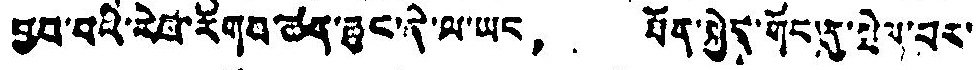བྱབ་པའི་རེབ་རོགས་ཚན་ཆུང་དེ་ལ་ཡང， ཐོན་སྐྱེད་གོང་དུ་སྤེལ་བར་
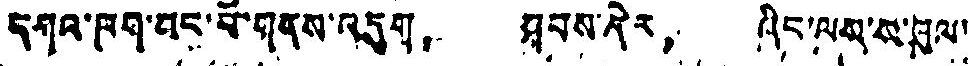དགའ་ཁབ་བུང་པོ་གནས་འདུག， ཐབས་དེར， ཞིང་ལས་ས་ཁུལ་
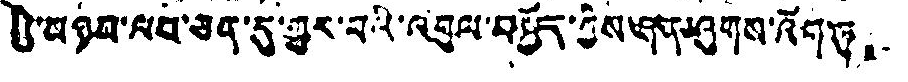ཀྱི་མཉམ་ལབ་ཅན་དུ་གྱུར་བའི་འབུལ་བསྐྱོད་ཀྱིས་ཤན་ཤུགས་འོག་ཏུ。
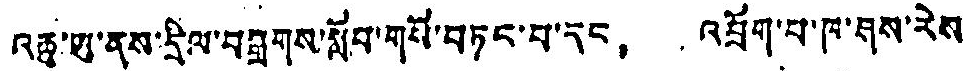འཆུ་ཡུ་ནས་དྲིལ་བསྒྲགས་སློབ་གསོ་བཏང་བ་དང， འབྲོག་པ་ཁ་ཤས་རེས
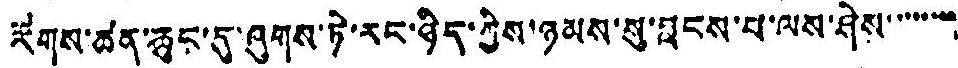རོགས་ཚན་ཆུང་དུ་ཞུགས་ཏེ་རང་ཉིད་ཀྱིས་ཉམས་སུ་བླངས་པ་ལས་ཤེས་་་་་་་་
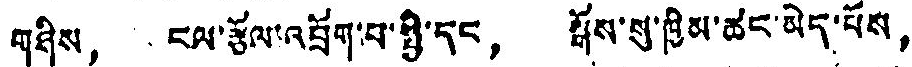གཤིས， ངལ་རྩོལ་འབྲོག་པ་སྤྱི་དང， སྒོས་སུ་ཁྱིམ་ཚང་མེད་པོས，
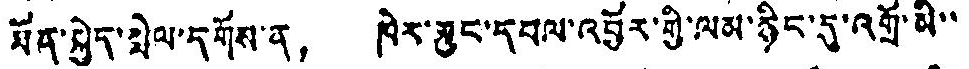ཐོན་སྐྱེད་སྤེལ་དགོས་ན， ཁེར་ཆུང་དཔལ་འབྱོར་གྱི་ལམ་རྙིང་དུ་འགྲོ་མི་་
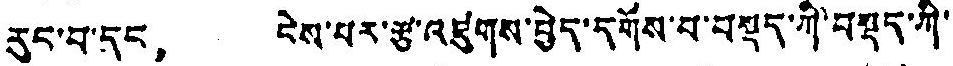རུང་བ་དང， ངེས་པར་རྩ་འཛུགས་བྱེད་དགོས་པ་བསྡད་ཀི་བསྡད་ཀྱི་
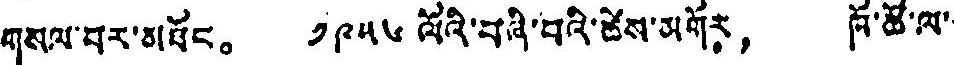གསལ་བར་མཐོང。 ༡༩༥༦ ལོའི་བཞི་བའི་ཚེས་མགོར， ཁོ་ཚོ་ལ་
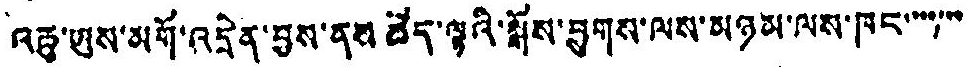འཆུ་ཡུས་མགོ་འདྲེན་བྱས་ནས ཚོད་ལྟའི་སྒོས་ཕྱུགས་ལས་མཉམ་ལས་ཁང་་་་་་
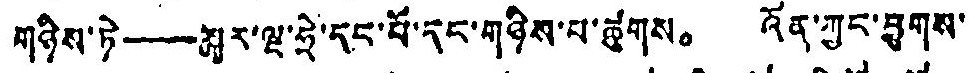གཉིས་ཏེ—སྐར་ལྔ་ཧྲེ་དང་པོ་དང་གཉིས་པ་ཚུགས。 འོན་ཀྱང་བྱུགས་
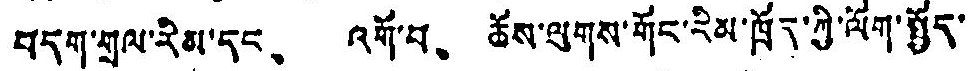བདག་གྲལ་རིམ་དང、 འགོ་བ、 ཆོས་ལུགས་གོང་རིམ་ཁྲོད་ཀྱི་ལོག་སྤྱོད་
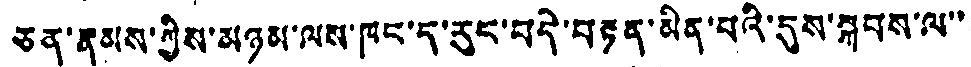ཅན་རྣམས་ཀྱིས་མཉམ་ལས་ཁང་ད་རུང་བདེ་བརྟན་མིན་པའི་དུས་སྐབས་ལ་་
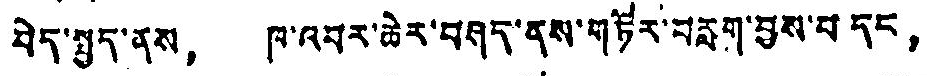བེད་སྤྱད་ནས， ཁ་འབར་ཆེར་བཤད་ནས་གཏོར་བརླག་བྱས་པ དང，
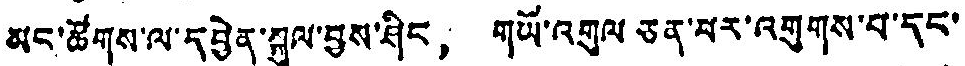མང་ཚོགས་ལ་དབྱེན་སྐུལ་བྱས་ཤིང， གཡོ་འགུལ ཅན་པར་འགུགས་པ་དང་
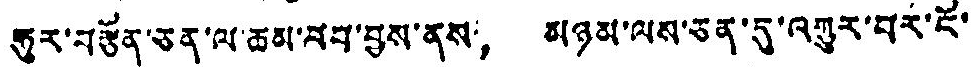ཧུར་བརྩོན་ཅན་ལ་ཆམ་བབ་བྱས་ནས， མཉམ་ལས་ཅན་དུ་འགྱུར་བར་ངོ་
